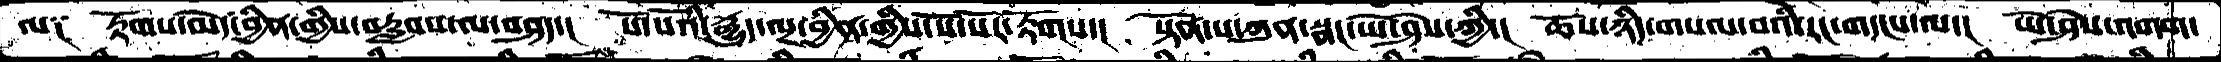ལ༑  རྟོགས་མེད་བྱིན་གྱིས་བརླབས་ལ་བཤད་།  སོ་སོའི་རྒྱུད་ལྔ་བྱིན་གྱིས་སོ་སོར་རྟོགས་།  སྟོན་པ་ཀུན་སྣང་ཡེ་ཤེས་ཀྱི་།  ཆོས་ཉིད་གསལ་བའི་རང་གདངས་ལ་།  ཡེ་ཤེས་འགག་
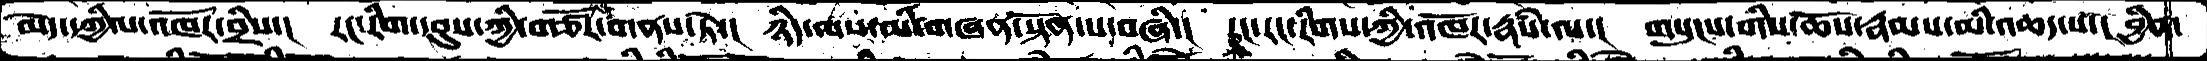མེད་དཀྱིལ་འཁོར་བྲིས་།  རང་རིག་དབུས་ཀྱི་གཙོར་གནས་ཏེ་།  ཉིད་ལས་མི་གཞན་སྟོན་པ་བཞི་།  རང་རང་རིགས་ཀྱི་འཁོར་རྣཾས་ལ་།  གསུངས་གིས་ཆོས་རྣམས་མི་འཆད་པ་།  བྱིན་
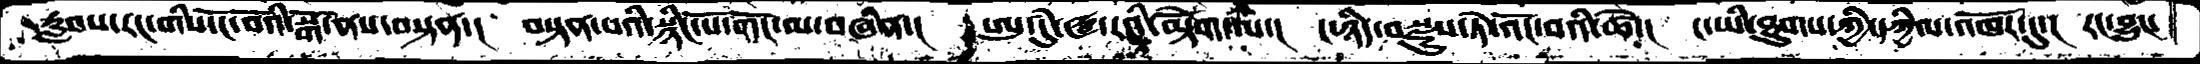རླབས་རང་གིས་ངོ་བོའི་སྒོ་ནས་བསྟན་།  བསྟན་པའི་སྙིང་པོ་གོང་མ་བཞིན་།  ཨུ་དུཾ་ཝ་རའི་མྟེོག་ལ་།  ང་ཉདི་བསྫུས་ཏེ་འོང་བའི་ཚེ་།  ང་ཡི་ཐུགས་ཀྱི་དཀྱིལ་འཁོར་དུ་།  རང་བྱུང་
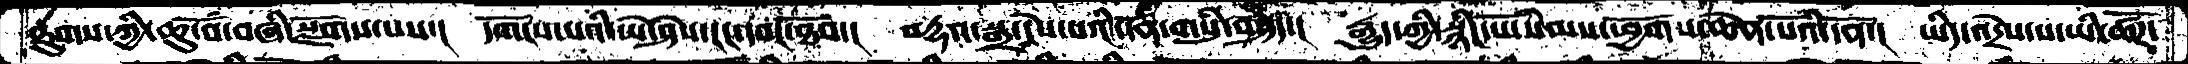ཐུགས་ཀྱི་ཆུ་བོ་བཞི་སྫོགས་པས་།  དགོངས་པའི་ཡེ་ཤེས་རང་དབང་ཐོབ་།  བརྡའ་སྒྲ་ངེས་པའི་དོན་གསུཾ་བཤད་།  རྒྱུད་གྱི་སྙིང་པོ་སེམས་ཕྱོགས་ཆེན་པོའི་དོན་།  ཡིད་འདྲེས་པ་ཡི་ཚོཌ་
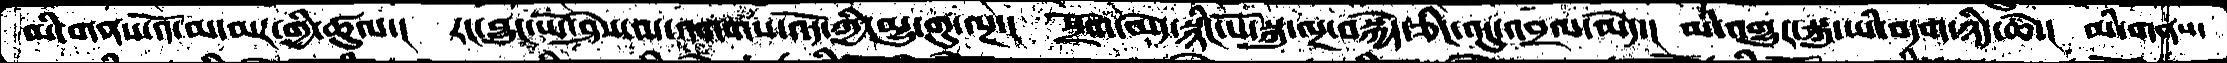མི་གནས་འོ་མ་མར་གྱི་ཚུལ་།  རང་བྱུང་ཡེ་ཤེས་མ་འགགས་འོད་ཀྱི་མྱུ་གུ་ལྔ་།  སྲོག་མེད་སྙིང་པོ་སྐུ་ལྔ་བསྐྱེད་ཅིང་འདུ་འབྲལ་མེད་།  མི་འགྱུར་སྐུ་ཡི་བདག་ཉིད་ཆེ་།  མི་གནས་
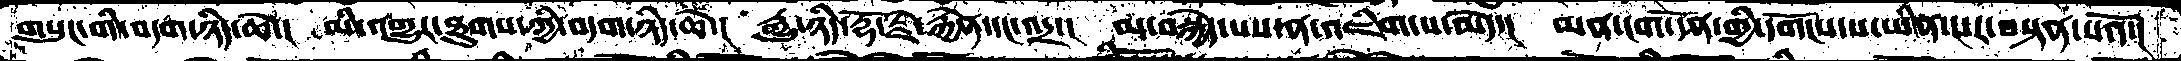གསུང་གི་བདག་ཉིད་ཆེ་།  མི་འགྱུར་ཐུགས་ཀྱི་བདག་ཉིད་ཆེ་།  རྒྱུ་ཉིད་རྡོ་རྗེ་རྐྱེན་དང་འདྲ་།  མ་བསྐྱེད་པས་ན་འཇིག་པ་མེད་།  མན་ངག་དོན་གྱི་དགོངས་པ་ཡིན་པར་བསྟན་པའོ་།
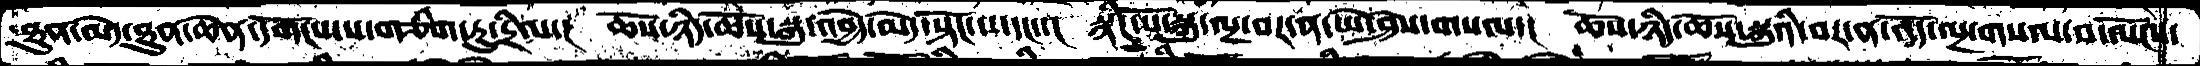ཐུན་མེད་ཐུན་ཆེན་དགོངས་པ་གཅིག་ཏུ་དྲིལ་།  ཆོས་ཉིད་ཆོས་སྐུ་འབྱེད་མེད་སྟོང་པ་དང་་།  སྙིང་པོ་སྐུ་ལྔ་བར་ན་ཡེ་ཤེས་གསལ་།  ཆོས་ཉིད་ཆོས་སྐུའི་བར་ན་འོད་ལྔ་གསལ་བ་ལོངས་
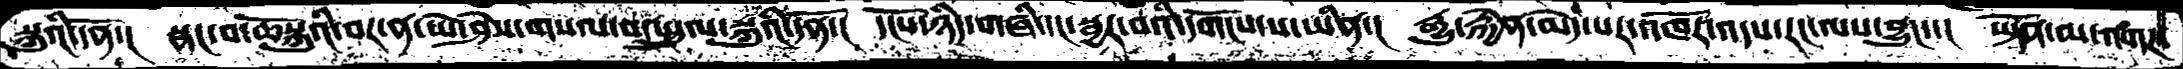སྐུའི་དོན་།  སྣང་བ་ཆོསྐུའི་བར་ན་ཡེ་ཤེས་གསལ་བ་སྤྲུལ་སྐུའི་དོན་།  དངོས་ཉིད་གཞི་དང་སྦྱར་བའི་དགོངས་པ་ཡིན་།   རྒྱུ་རྐྱེན་མེད་པར་འཁོར་འདས་རང་ལས་བྱུང་་།  ཡྟོན་མ་འགཌ་
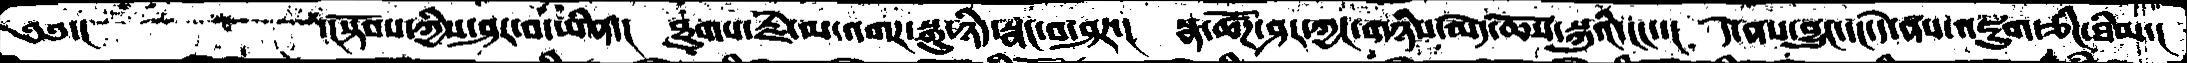༄༅་།     ་།སྟོབས་ཀྱིས་ཤར་བ་ཡིན་།  ཐུགས་རྗེ་མ་འགཌ་སྐུ་ཉིད་སྣང་བ་ཤར་།   སྣ་ཚོཌ་ཤར་ཀྱང་གཉིས་མེད་ཆོས་སྐུའི་ངང་་།  དེ་ནས་བྱུང་དང་དེ་ནས་འཇུག་ཅིང་ཐིམ་།
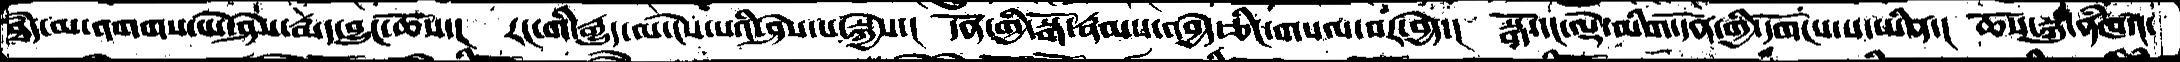ཐཾད་མ་འགགས་ཡེ་ཤེས་རྨད་བྱུང་ཆོས་།  རང་གི་རྒྱུད་ལ་ངེས་པའི་ཤེས་པ་སྐྱེས་།  དོན་གྱི་སྒོ་རྣམས་འབྱེད་ཅིང་གསལ་བར་བྱེད་།  སྒོ་དང་ལྡེ་མིག་དོན་གྱི་དགོངས་པ་ཡིན་།  ཆོས་སྐུ་ནཾཁའ་
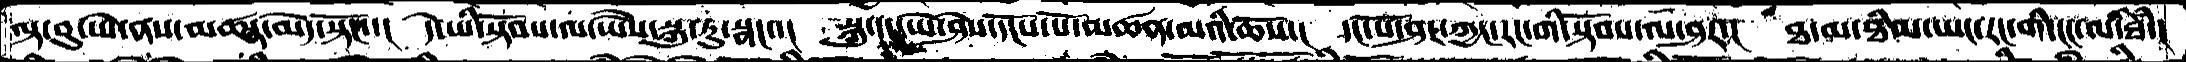ལྟ་བུ་ཡེ་ནས་མཚན་མེད་སྟོང་་།  དེ་ཡི་སྟོབས་ལ་ཡཻས་སྐུ་རུ་སྣང་་།  སྐུ་དང་ཡེ་ཤེས་དངོས་པོ་མཚན་མའི་ཆོས་།  དང་པོ་ཤར་ཀྱང་རང་གི་སྟོབས་ལ་ཤར་།  ཐ་མ་ཐིམ་ཡང་རང་གི་ངང་ལ་ཐིཾ་།
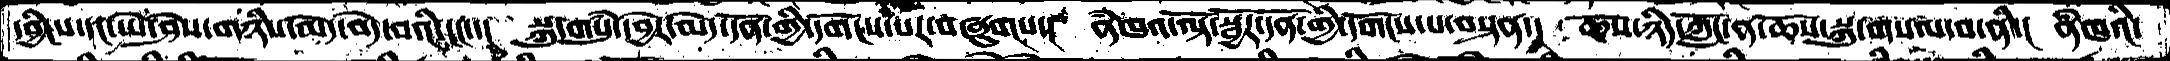དབྱིངས་དང་ཡེ་ཤེས་གཉིས་མེད་བདེ་བའི་ངང་་།  སྐུ་གསུཾ་དབྱེར་མེད་དོན་གྱི་དགོངས་པར་བཞུགས་།  ནཾཁའ་ལྟོ་སྦྱོར་དོན་གྱི་དགོངས་པ་བསྟན་།  ཆོས་ཉིད་ཀློང་ན་ཆོས་སྐུ་གསལ་བ་ནི་། ནཾཁའི་
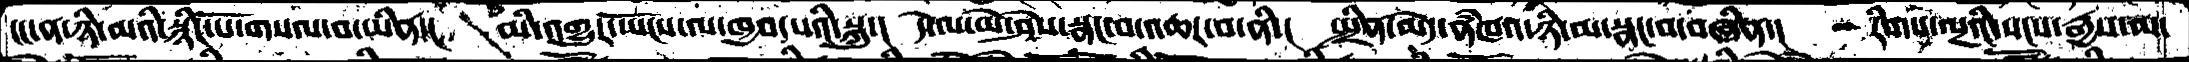ངང་ན་ཉི་མའི་སྙིང་པོ་གསལ་བ་ཡིན་།   མི་འགྱུར་ཡོངས་ལ་ཁྱབ་པའི་སྐུ་།  དེ་ལ་ཡེ་ཤེས་སྣང་བ་འཆར་བ་ནི་།  སྤྲིན་མེད་ནཾཁའ་ཉི་མ་སྣང་བ་བཞིན་།  རིགས་ལྔའི་སངས་རྒྱས་མ་
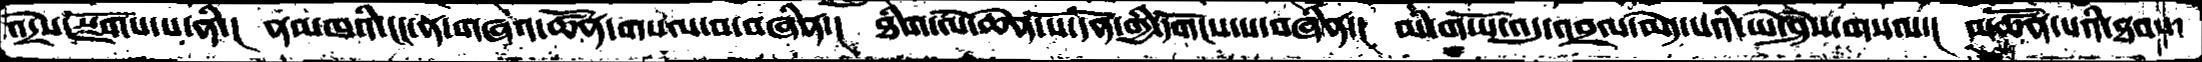འདྲེས་སྫོགས་པ་ནི་།  ནམཁའི་ངང་ན་གཞའ་ཚོན་གསལ་བ་བཞིན་།  ཐིག་ལེ་ཆེན་པོ་དོན་གྱི་དགོངས་པ་བཞིན་།  མི་གཡོ་འདུ་འབྲལ་མེད་པའི་ཡེ་ཤེས་གསལ་།  མཚོན་པའི་ཐབས་
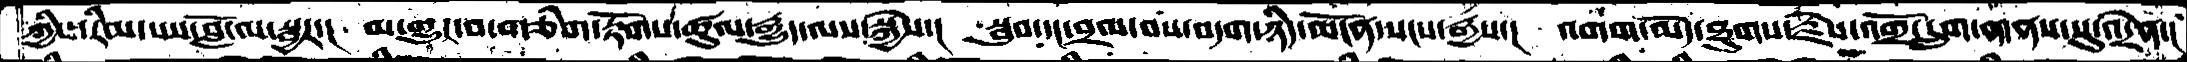ཀྱིས་རིམ་པས་བློ་ལ་སྦྱར་།  མ་གྱུར་བ་གཅིག་རྟོགས་ཚུལ་རྒྱུད་ལས་སྐྱེས་།  སྦུབ་དང་བྲལ་བས་བདག་ཉིད་མངོན་སངས་རྒྱས་།  འགག་མེད་ཐུགས་རྗེས་འགྲོ་དྲུག་གནས་སུ་འདྲེན་།
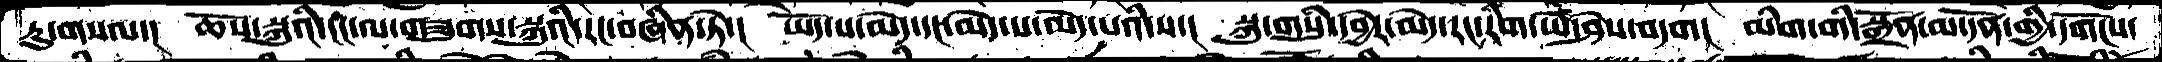རུ་གསལ་།  ཆོས་སྐུའི་ངང་ལ་གཟུགས་སྐུའི་རང་བཞིན་ཏེ་།  ཡོད་པ་མེད་དང་མེད་པ་མེད་པའི་ས་།  སྐུ་གསུཾ་དབྱེར་མེད་རང་རིག་ཡེ་ཤེས་བདག།  མིག་གི་སྒྲོན་མ་དོན་གྱི་དགོངས་
